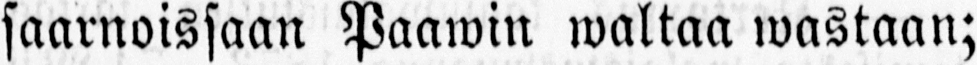saarnoissaan Paawin waltaa wastaan;
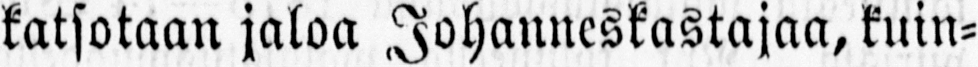katsotaan jaloa Johanneskastajaa, kuin-
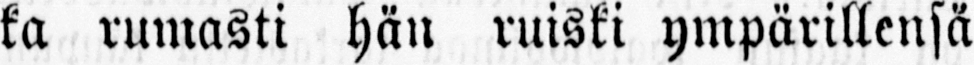ka rumasti hän ruiski ympärillensä
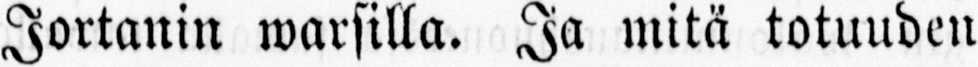Jortanin warsilla. Ja mitä totuuden
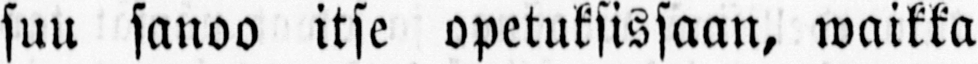suu sanoo itse opetuksissaan, waikka
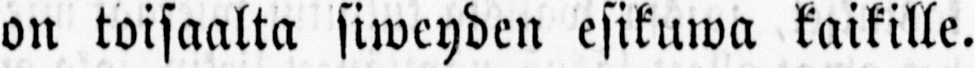on toisaalta siweyden esikuwa kaikille.
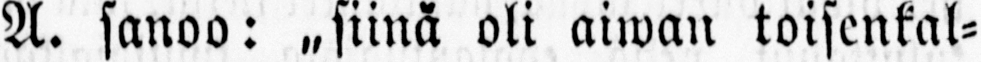A. sanoo: ˶siinä oli aiwan toisenkal-
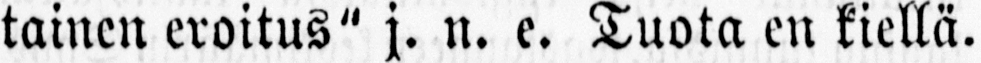tainen eroitus" j. n. e. Tuota en kiellä.
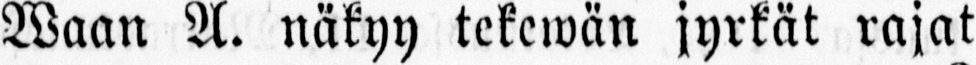Waan A. näkyy tekewän jyrkät rajat
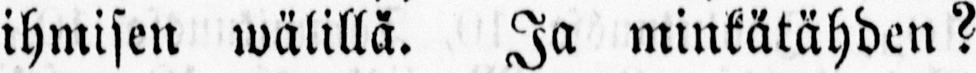ihmisen wälillä. Ja minkätähden?
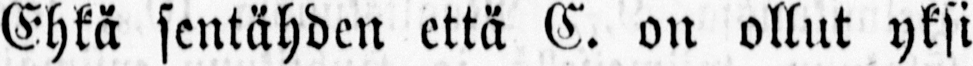Ehkä sentähden että E. on ollut yksi
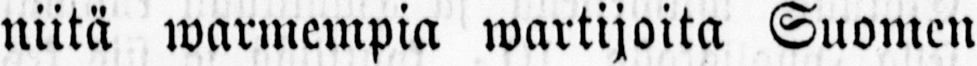niitä warmempia wartijoita Suomen
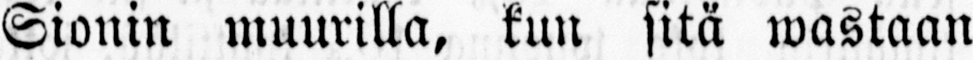Sionin muurilla, kun sitä wastaan
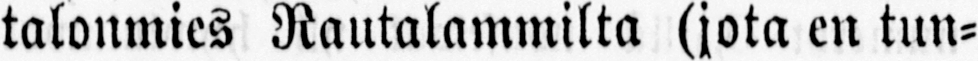talonmies Rautalammilta (jota en tun-
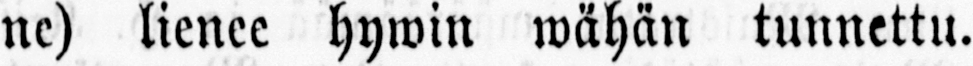ne) lienee hywin wähän tunnettu.
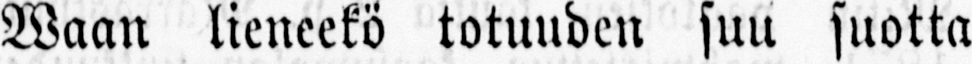waan lieneekö totuuden suu suotta
